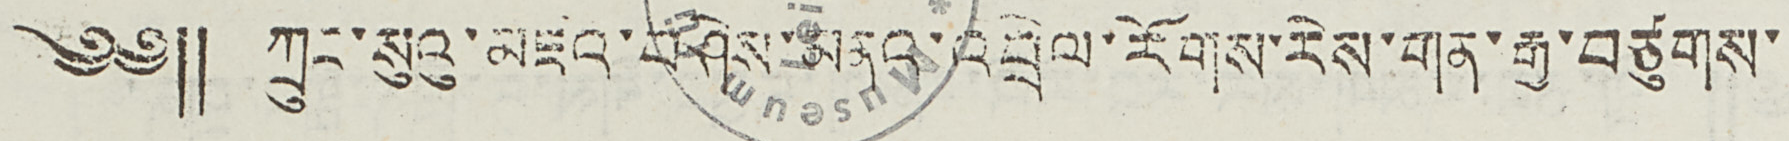༄༅༎ ཀྲུང་སུའུ་མཇའ་བཤེས་མནའ་འབྲེལ་རོགས་རེས་གན་རྒྱ་བཙུགས་
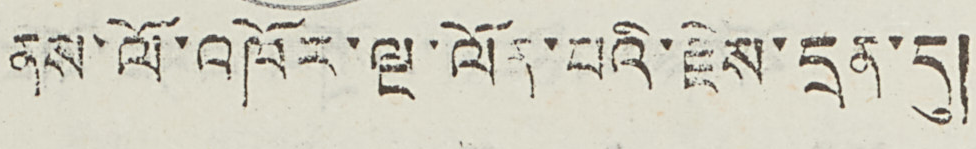ནས་ལོ་འཁོར་ལྔ་ལོན་པའི་རྗེས་དྲན་དུ།
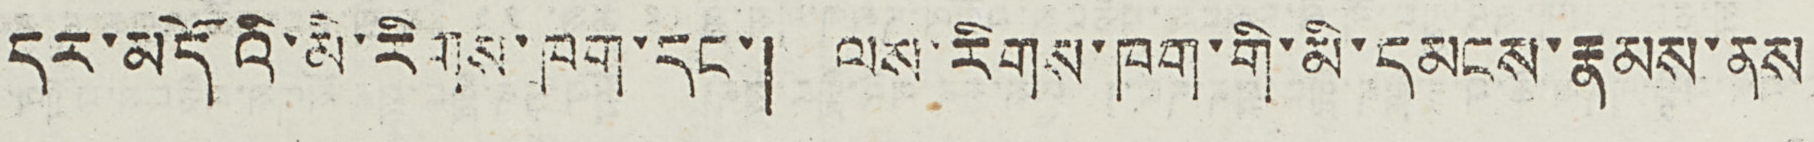དར་མདོའི་མི་རིགས་ཁག་དང་། ལས་རིགས་ཁག་གི་མི་དམངས་རྣམས་ནས
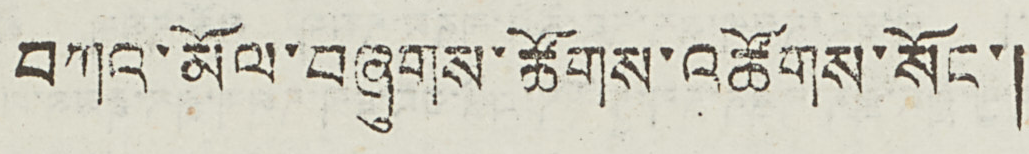བཀའ་མོལ་བཞུགས་ཚོགས་འཚོགས་སོང་།
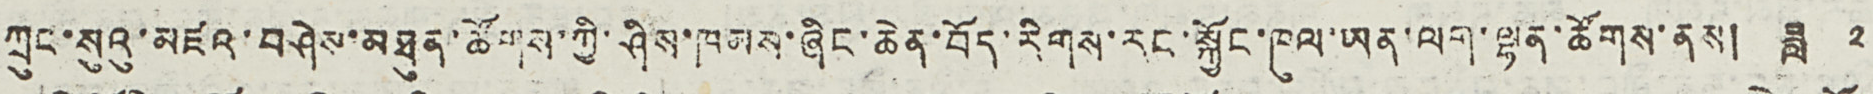ཀྲུང་སུའུ་མཛའ་བཤེས་མཐུན་ཚོགས་ཀྱི་ཤིས་ཁམས་ཞིང་ཆེན་བོད་རིགས་རང་སྐྱོང་ཁུལ་ཡན་ལག་ལྷན་ཚོགས་ནས། ཟླ ༢
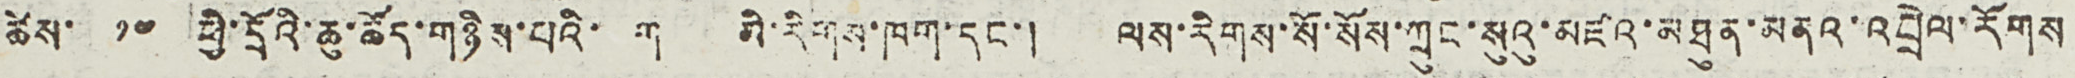ཚེས་ ༡༤ ཕྱི་དྲོའི་ཆུ་ཚོད་གཉིས་པའི་ ག མི་རིགས་ཁག་དང་། ལས་རིགས་སོ་སོས་ཀྲུང་སུའུ་མཛའ་མཐུན་མནའ་འབྲེལ་རོགས
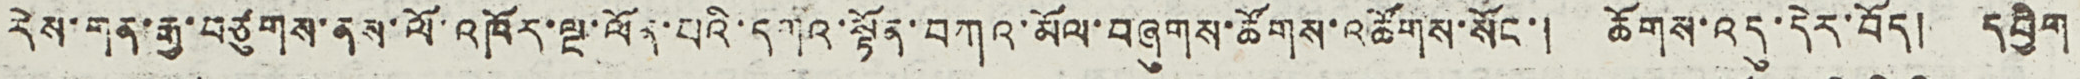རེས་གན་རྒྱ་བཙུགས་ནས་ལོ་འཁོར་ལྔ་ལོན་པའི་དཀའ་སྟོན་བཀའ་མོལ་བཞུགས་ཚོགས་འཚོགས་སོང་། ཆོགས་འདུ་དེར་བོད། དབྱིག
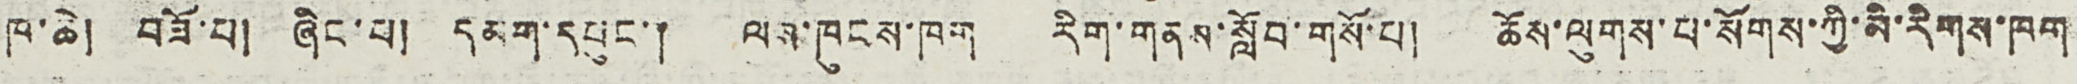ཁ་ཆེ། བཟོ་པ། ཞིང་པ། དམག་དཔུང་། ལས་ཁུངས་ཁག རིག་གནས་སློབ་གསོ་པ། ཆོས་ལུགས་པ་སོགས་ཀྱི་མི་རིགས་ཁག
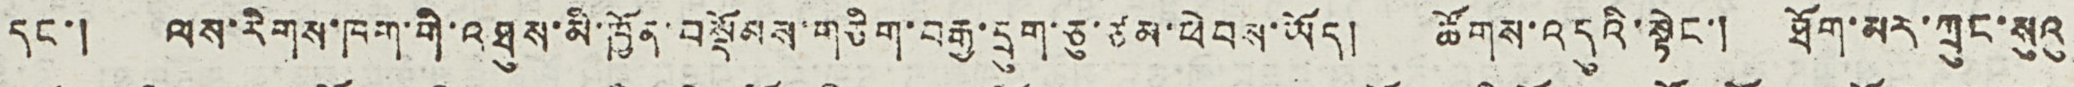དང་། ལས་རིགས་ཁག་གི་འཐུས་མི་ཁྱོན་བསྡོམས་གཅིག་བརྒྱ་དྲུག་ཅུ་ཙམ་ཕེབས་ཡོད། ཚོགས་འདུའི་སྟེང་། ཐོག་མར་ཀྲུང་སུའུ
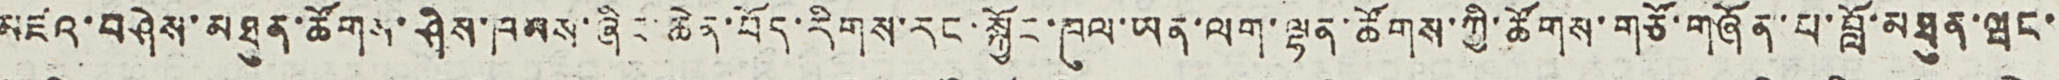མཛའ་བཤེས་མཐུན་ཚོགས་ཤིས་ཁམས་ཞིང་ཆེན་བོད་རིགས་རང་སྐྱོང་ཁུལ་ཡན་ལག་ལྷན་ཚོགས་ཀྱི་ཚོགས་གཙོ་གཞོན་པ་བློ་མཐུན་ཝང་
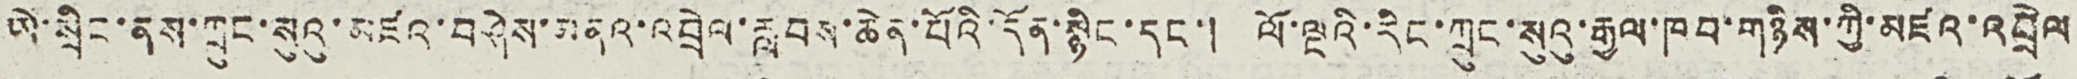ཡེ་སྲིང་ནས་ཀྲུང་སུའུ་མཛའ་བཤེས་མནའ་འབྲེལ་རླབས་ཆེན་པོའི་དོན་སྙིང་དང་། ལོ་ལྔའི་རིང་ཀྲུང་སུའུ་རྒྱལ་ཁབ་གཉིས་ཀྱི་མཛའ་འབྲེལ
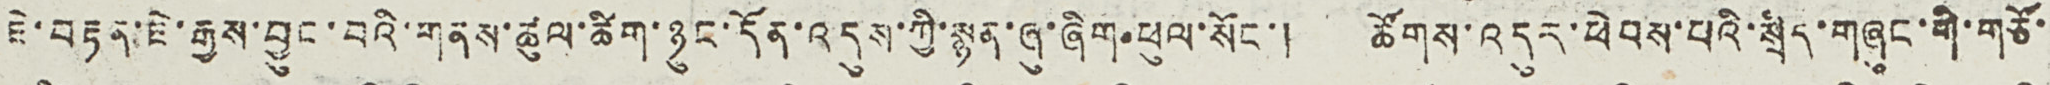ཇེ་བརྟན་ཇེ་རྒྱས་བྱུང་བའི་གནས་ཚུལ་ཚིག་ཉུང་དོན་འདུས་ཀྱི་སྙན་ཞུ་ཞིག་ཕུལ་སོང་། ཚོགས་འདུར་ཕེབས་པའི་སྲིད་གཞུང་གི་གཙོ་
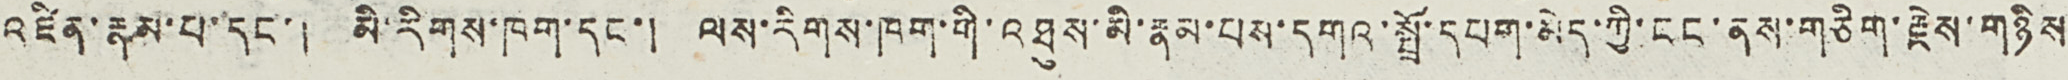འཛིན་རྣམ་པ་དང་། མི་རིགས་ཁག་དང་། ལས་རིགས་ཁག་གི་འཐུས་མི་རྣམ་པས་དགའ་སྤྲོ་དཔག་མེད་ཀྱི་ངང་ནས་གཅིག་རྗེས་གཉིས
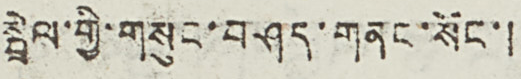སྦྲེལ་གྱི་གསུང་བཤད་གནང་སོང་།
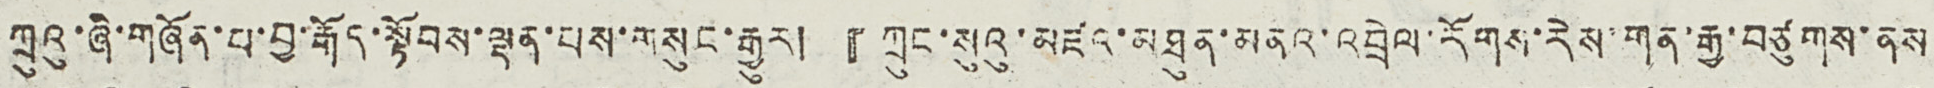ཀྲུའུ་ཞི་གཞོན་པ་བྱ་རྒོད་སྟོབས་ལྡན་པས་གསུང་རྒྱུར། 『ཀྲུང་སུའུ་མཛའ་མཐུན་མནའ་འབྲེལ་རོགས་རེས་གན་རྒྱ་བཙུགས་ནས
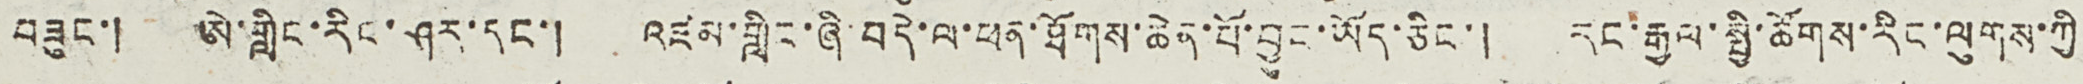བཟུང་། ཨེ་གླིང་རིང་ཤར་དང་། འཛམ་གླིང་ཞི་བདེ་ལ་ཕན་ཐོགས་ཆེན་པོ་བྱུང་ཡོད་ཅིང་། རང་རྒྱལ་སྤྱི་ཚོགས་རིང་ལུགས་ཀྱི
